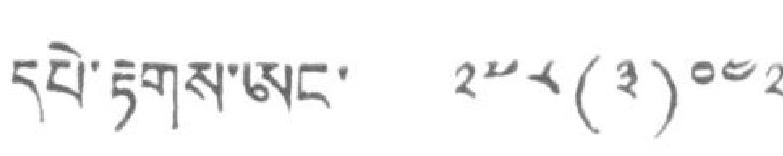དཔེ་རྟགས་ཨང་ ༢༧༨(༣)༠༤༢
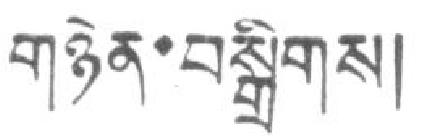གཉེན་བསྒྲིགས།
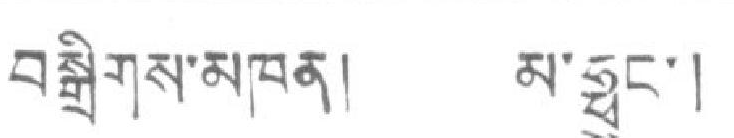བསྒྲིགས་མཁན། མ་ཧྥུང་།
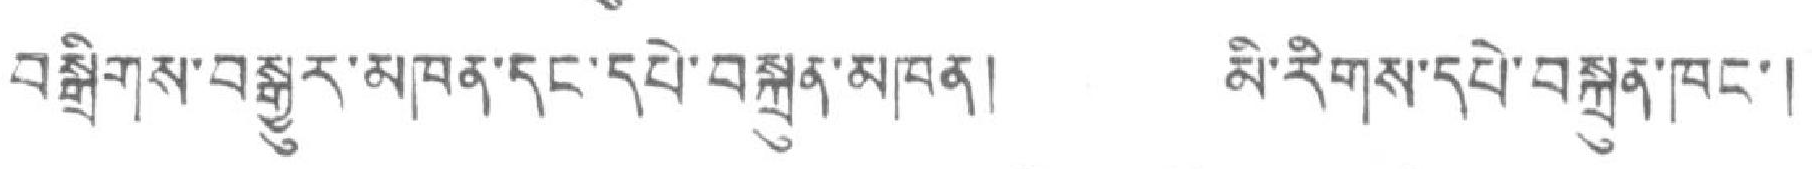བསྒྲིགས་བསྒྱུར་མཁན་དང་དཔེ་བསྐྲུན་མཁན། མི་རིགས་དཔེ་བསྐྲུན་ཁང་།
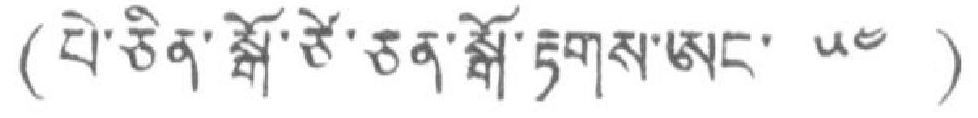(པེ་ཅིན་སྒོ་ཙེ་ཅན་སྒོ་རྟགས་ཨང་ ༥༤ )
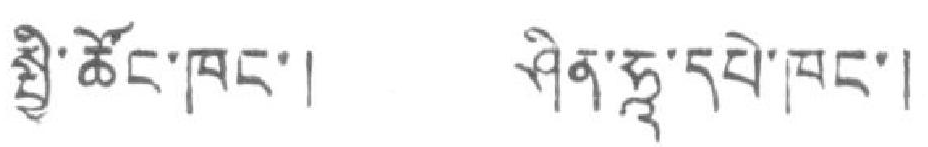སྤྱི་ཚོང་ཁང་། ཤིན་ཧཱ་དཔེ་ཁང་།
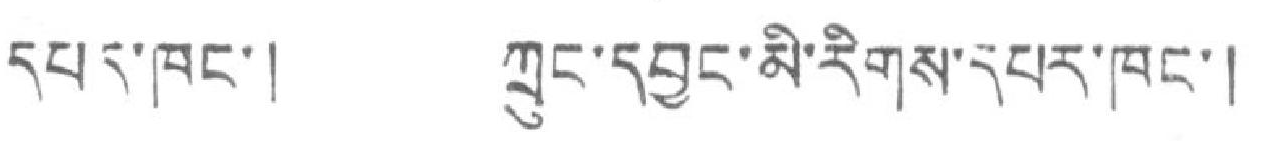དཔར་ཁང་། ཀྲུང་དབྱང་མི་རིགས་དཔར་ཁང་།
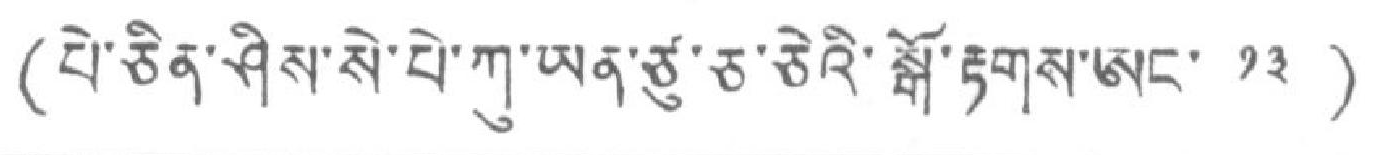(པེ་ཅིན་ཤིས་སེ་པེ་ཀུ་ཡན་ཙུ་ཅ་ཅེའི་སྒོ་རྟགས་ཨང་ ༡༣ )
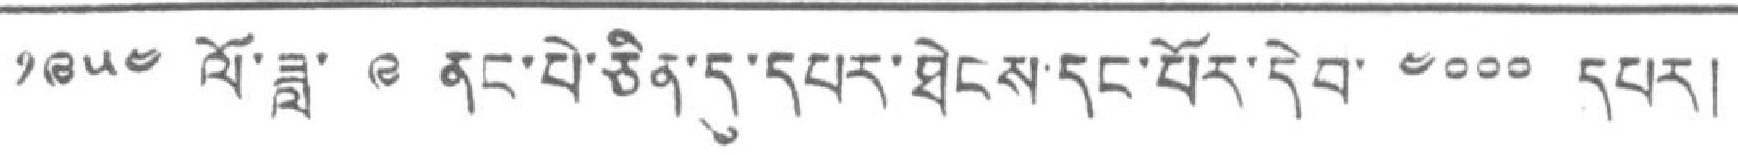༡༩༥༤ ལོ་ཟླ་ ༩ ནང་པེ་ཅིན་དུ་དཔར་ཐེངས་དང་པོར་དེབ་ ༤༠༠༠ དཔར།
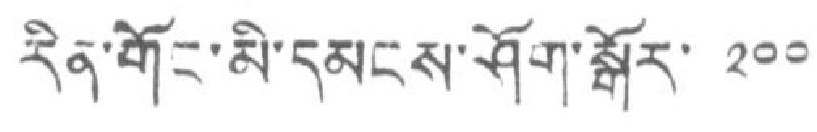རིན་གོར་མི་དམངས་ཤོག་སྒོར་ ༢༠༠
